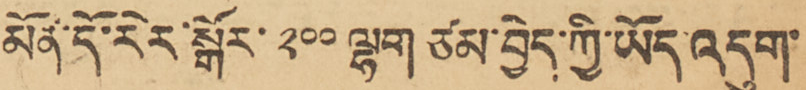མོན་དོ་རེར་སྒོར་ ༢༠༠ ལྷག ཙམ་བྱེད་ཀྱི་ཡོད་འདུག་
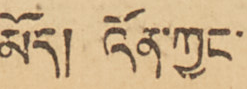མོད། འོན་ཀྱང་
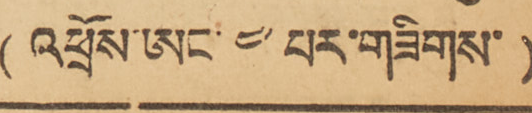( འཕྲོས་ཨང་ ༤ པར་གཟིགས་ )
